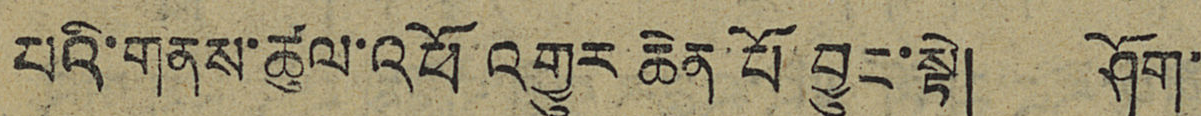པའི་གནས་ཚུལ་འཕོ་འགྱུར ཆེན་པོ་བྱུང་སྟེ། ཤོག་
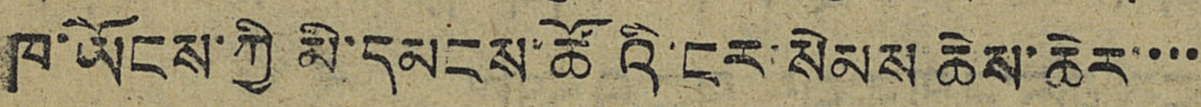ཁ་ཡོངས་ཀྱི མི་དམངས་ཚོའི་ངར་སེམས ཆེས་ཆེར་་་་
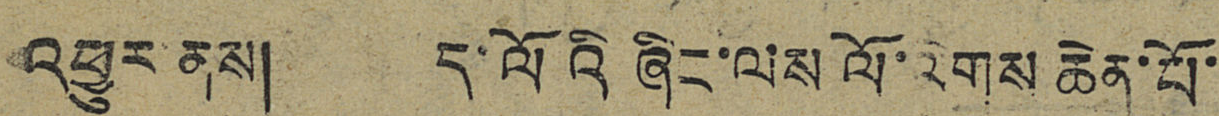འཕྱུར་ནས། ད་ལོའི ཞིང་ལས ལོ་འགས ཆེན་པོ་
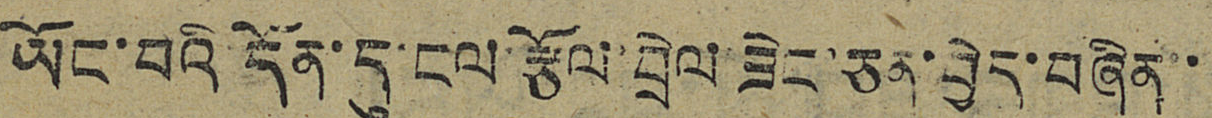ཡོང་བའི་དོན་དུ་ངལ་རྩོལ་བྲེལ་ཟེང་ཅན་བྱེད་བཞིན་་
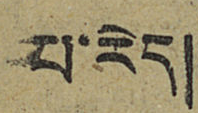པ་རེད།
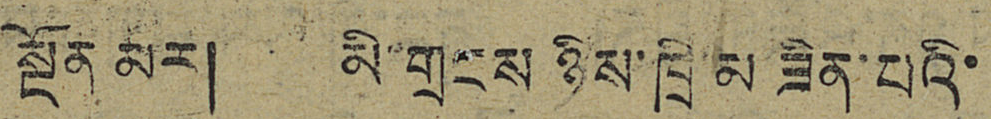སྔོན་མར། མི་གྲངས ཉིས་ཁྲི་མ ཟིན་པའི་
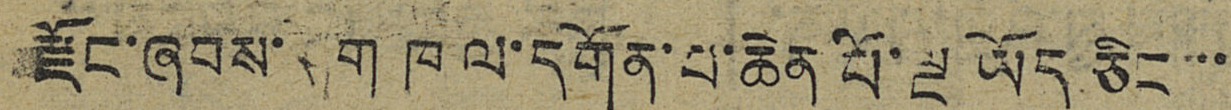རྫོང་ཞབས་ཤག ཁ ལ་དགོན་པ་ཆེན་པོ་ལྔ ཡོད ཅིང་་་
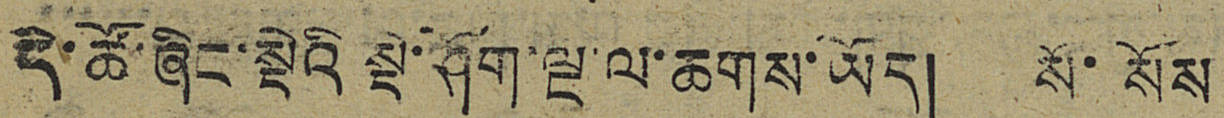དེ་ཚོ་ཞིང་སྡེའི སྡེ་ཤོག་ལྔ་ལ་ཆགས་ཡོད། སོ་སོས
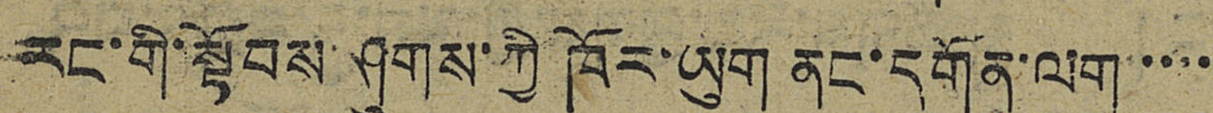རང་གི་སྟོབས་ཤུགས་ཀྱི ཁོར་ཡུག ནང་དགོན་ལག་་་་
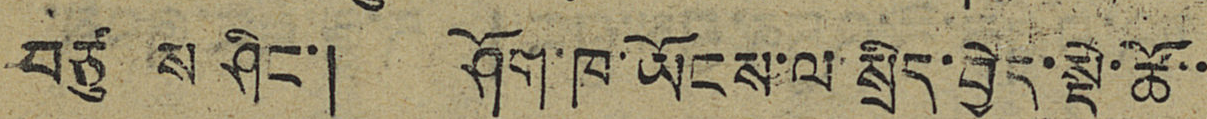བཙུ ས ཤིང་། ཤོག་ཁ་ཡོངས་ལ་སྲིད་བྱེད་སྡེ་ཚོ་་
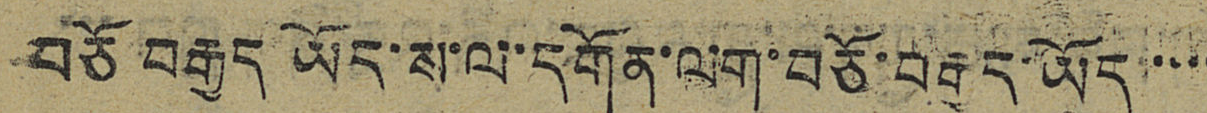བཅོ བརྒྱད ཡོད་ས་་ས་ལ་དགོན་ལག་བཅོ་བརྒྱད་ཡོད་་་་
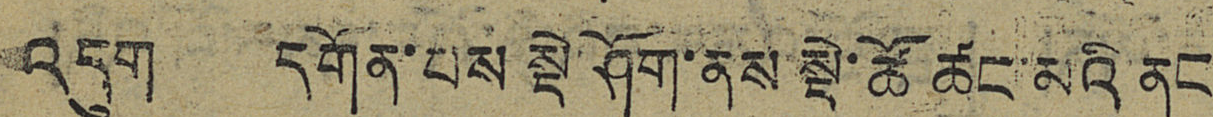འདུག དགོན་པས སྡེ ཤོག་ནས་སྡེ་ཚོ ཚང་མའི་ནང
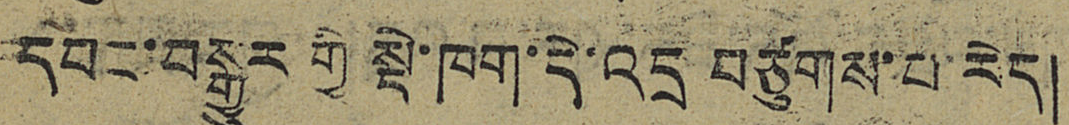དབང་བསྒྱུར གྱི སྡེ་ཁག་དེ་འདྲ བཙུགས་པ་རེད།
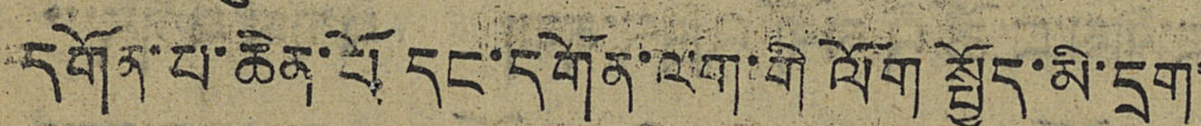དགོན་པ་ཆེན་པོ དང་དགོན་ལག་གི ལོག སྤྱོད་མི་དྲག་
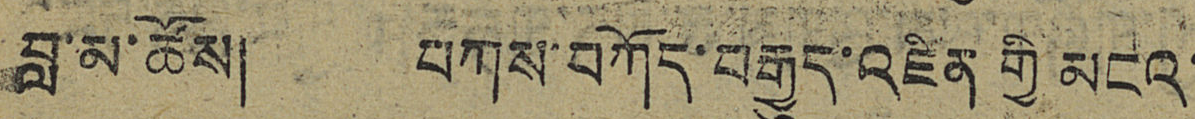བླ་མ་ཚོས། བཀས་བཀོད་བརྒྱུད་འཛིན གྱི མངའ་
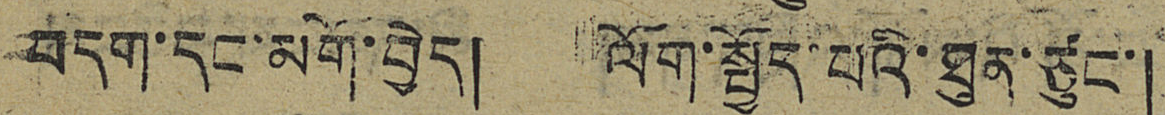བདག་དང་མགོ་བྱེད། ལོག་སྤྱོད་པའི་ཐུན་ཙུང་།
